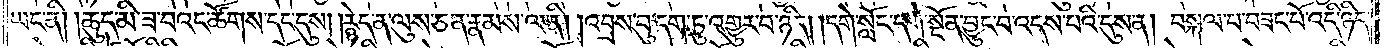ཡང་ནི། །ཆུད་མི་ཟ་བའང་ཚོགས་དང་དུས། །རྙེད་ན་ལུས་ཅན་རྣམས་ལ་ནི། །འབྲས་བུ་དག་ཏུ་འགྱུར་བ་ཉིད། །དགེ་སློང་དག་སྔོན་བྱུང་བ་འདས་པའི་དུས་ན། བསྐལ་པ་བཟང་པོ་འདི་ཉིད་
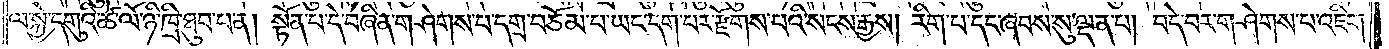ལ་སྐྱེ་དགུའི་ཚེ་ལོ་ཉི་ཁྲི་ཐུབ་པ་ན། སྟོན་པ་དེ་བཞིན་གཤེགས་པ་དགྲ་བཅོམ་པ་ཡང་དག་པར་རྫོགས་པའི་སངས་རྒྱས། རིག་པ་དང་ཞབས་སུ་ལྡན་པ། བདེ་བར་གཤེགས་པ་འཇིག་
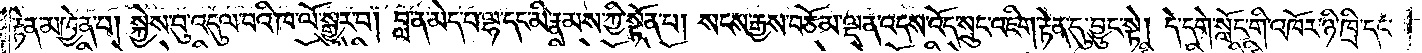རྟེན་མཁྱེན་པ། སྐྱེས་བུ་འདུལ་བའི་ཁ་ལོ་སྒྱུར་བ། བླ་ན་མེད་པ་ལྷ་དང་མི་རྣམས་ཀྱི་སྟོན་པ། སངས་རྒྱས་བཅོམ་ལྡན་འདས་འོད་སྲུང་འཇིག་རྟེན་དུ་བྱུང་སྟེ། དེ་དགེ་སློང་གི་འཁོར་ཉི་ཁྲི་དང་
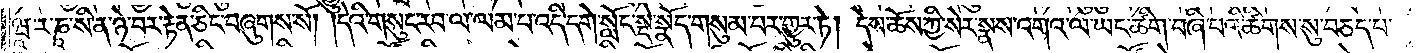ཝཱ་ར་ཎཱ་སི་ན་ཉེ་བར་རྟེན་ཅིང་བཞུགས་སོ། །དེའི་གསུང་རབ་ལ་ལམ་པ་འདི་དགེ་སློང་སྡེ་སྣོད་གསུམ་པར་གྱུར་ཏེ། དེས་ཆོས་ཀྱི་སེར་སྣས་འགའ་ལ་ཡང་ཚིག་བཞི་པའི་ཚིགས་སུ་བཅད་པ་
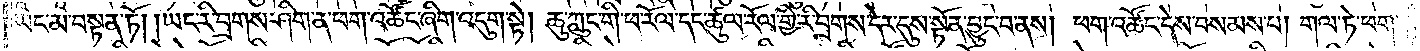ཡང་མ་བསྟན་ཏོ། །ཡང་རི་བྲགས་ཤིག་ན་ཕག་འཚོང་ཞིག་འདུག་སྟེ། ཆུ་ཀླུང་གི་ཕ་རོལ་དང་ཚུལ་རོལ་གྱི་རི་བྲགས་དེར་དུས་སྟོན་བྱུང་བ་ནས། ཕག་འཚོང་དེས་བསམས་པ། གལ་ཏེ་ཕག་
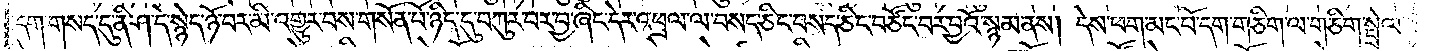དག་གསད་དུ་ནི་ཤ་དེ་སྙེད་ཉོ་བར་མི་འགྱུར་པས་གསོན་པོ་ཉིད་དུ་བཀུར་བར་བྱ་ཞིང་དེར་འཕྲལ་ལ་བསད་ཅིང་བསད་ཅིང་བཙོང་བར་བྱའོ་སྙམ་ནས། དེས་ཕག་མང་པོ་དག་གཅིག་ལ་གཅིག་སྦྲེལ་
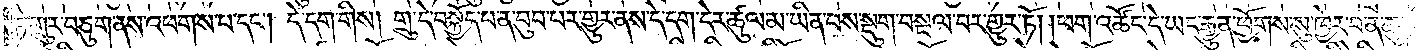ཏེ་གྲུར་བཅུག་ནས་འཕགས་པ་དང༌། དེ་དག་གིས། གྲུ་དེ་བསྐྱོད་པ་ན་བུབ་པར་གྱུར་ནས་དེ་དག་དེར་ཚུལ་མ་ཡིན་པས་སྡུག་བསྔལ་བར་གྱུར་ཏོ། །ཕག་འཚོང་དེ་ཡང་རྒྱུན་ཕྱོགས་སུ་ཁྱེར་བ་ན་ཆུ་
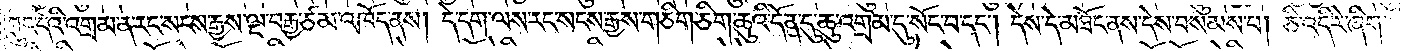ཀླུང་དེའི་འགྲམ་ན་རང་སངས་རྒྱས་ལྔ་བརྒྱ་ཙམ་འཁོད་ནས། དེ་དག་ལས་རང་སངས་རྒྱས་གཅིག་ཅིག་ཆུའི་དོན་དུ་ཆུ་འགྲམ་དུ་སོང་བ་དང༌། དེས་དེ་མཐོང་ནས་དེས་བསམས་པ། ཅི་འདི་རེ་ཞིག་
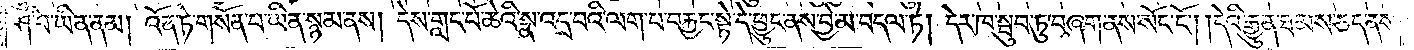ཤི་བ་ཡིན་ནམ། འོན་ཏེ་གསོན་པ་ཡིན་སྙམ་ནས། དེས་གླང་པོ་ཆེའི་སྣ་འདྲ་བའི་ལག་པ་བརྐྱང་སྟེ་དེ་ཕྱུང་ནས་བྱེ་མ་བདལ་ཏེ། དེར་ཁ་སྦུབ་ཏུ་བཞག་ནས་སོང་ངོ༌། །དེའི་རྒྱུན་ཐམས་ཅད་ནས་
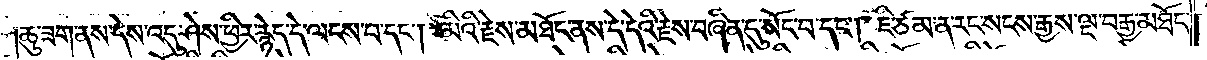ཆུ་ཟག་ནས་དེས་འདུ་ཤེས་ཕྱིར་རྙེད་དེ་ལངས་པ་དང༌། མིའི་རྗེས་མཐོང་ནས་དེ་དེའི་རྗེས་བཞིན་དུ་སོང་བ་དང༌། ཇི་ཙམ་ན་རང་སངས་རྒྱས་ལྔ་བརྒྱ་མཐོང་
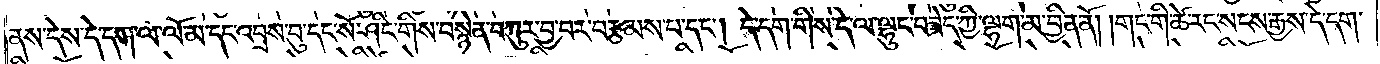ནས་དེས་དེ་དག་ལ་ལོ་མ་དང་འབྲས་བུ་དང་སོ་ཤིང་གིས་བསྙེན་བཀུར་བྱ་བར་བརྩམས་པ་དང༌། དེ་དག་གིས་དེ་ལ་ལྷུང་བཟེད་ཀྱི་ལྷག་མ་བྱིན་ནོ། །གང་གི་ཚེ་རང་སངས་རྒྱས་དེ་དག་
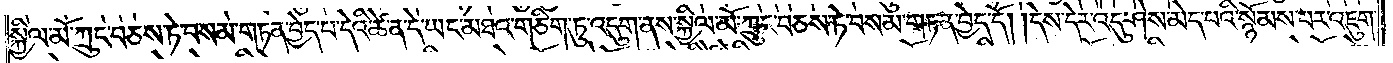སྐྱིལ་མོ་ཀྲུང་བཅས་ཏེ་བསམ་གཏན་བྱེད་པ་དེའི་ཚེ་ན་དེ་ཡང་མཐའ་གཅིག་ཏུ་འདུག་ནས་སྐྱིལ་མོ་ཀྲུང་བཅས་ཏེ་བསམ་གཏན་བྱེད་དོ། །དེས་དེར་འདུ་ཤེས་མེད་པའི་སྙོམས་པར་འཇུག་
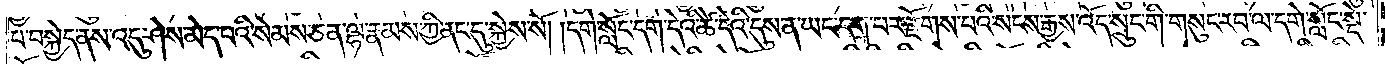པ་བསྐྱེད་ནས་འདུ་ཤེས་མེད་པའི་སེམས་ཅན་ལྷ་རྣམས་ཀྱི་ནང་དུ་སྐྱེས་སོ། །དགེ་སློང་དག་དེའི་ཚེ་དེའི་དུས་ན་ཡང་དག་པར་རྫོགས་པའི་སངས་རྒྱས་འོད་སྲུང་གི་གསུང་རབ་ལ་དགེ་སློང་སྡེ་
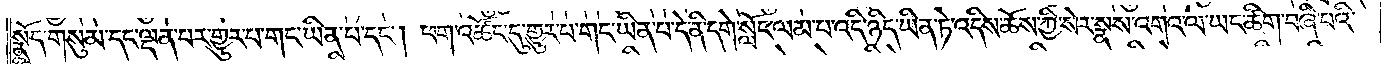སྣོད་གསུམ་དང་ལྡན་པར་གྱུར་པ་གང་ཡིན་པ་དང༌། ཕག་འཚོང་དུ་གྱུར་པ་གང་ཡིན་པ་དེ་ནི་དགེ་སློང་ལམ་པ་འདི་ཉིད་ཡིན་ཏེ་འདིས་ཆོས་ཀྱི་སེར་སྣས་འགའ་ལ་ཡང་ཚིག་བཞི་པའི་
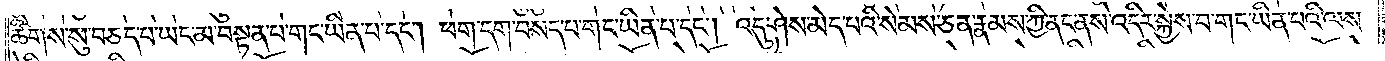ཚིགས་སུ་བཅད་པ་ཡང་མ་བསྟན་པ་གང་ཡིན་པ་དང༌། ཕག་དག་བསད་པ་གང་ཡིན་པ་དང༌། འདུ་ཤེས་མེད་པའི་སེམས་ཅན་རྣམས་ཀྱི་ནང་ནས་འདིར་སྐྱེས་པ་གང་ཡིན་པའི་ལས་
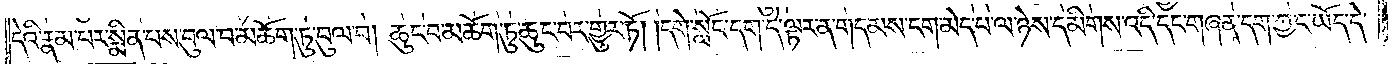དེའི་རྣམ་པར་སྨིན་པས་བུལ་པ་མཆོག་ཏུ་བུལ་བ། ཆུང་བ་མཆོག་ཏུ་ཆུང་བར་གྱུར་ཏོ། །དགེ་སློང་དག་དེ་ལྟར་ན་གདམས་ངག་མེད་པ་ལ་ཉེས་དམིགས་འདི་དང་གཞན་དག་ཀྱང་ཡོད་དེ་
